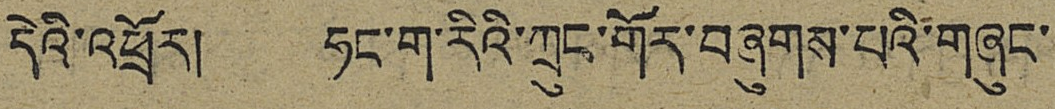དེའི་འཕྲོར། ཧང་ག་རིའི་ཀྲུང་གོར་བཞུགས་པའི་གཞུང་
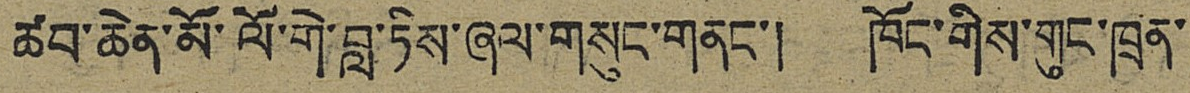ཚབ་ཆེན་མོ་ལོ་གེ་བླ་ཏིས་ཞལ་གསུང་གནང་། ཁོང་གིས་གུང་ཁྲན་
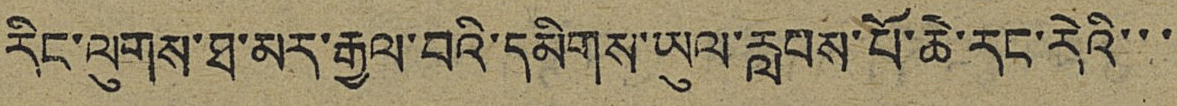རིང་ལུགས་ཐ་མར་རྒྱལ་བའི་དམིགས་ཡུལ་རླབས་པོ་ཆེ་རང་རེའི་་་
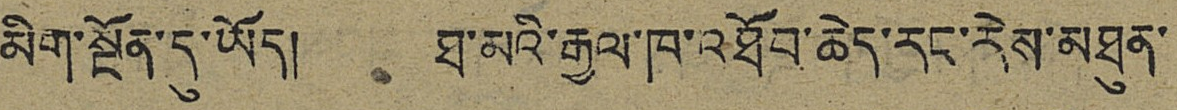མིག་སྔོན་དུ་ཡོད། ཐ་མའི་རྒྱལ་ཁ་འཐོབ་ཆེད་རང་རེས་མཐུན་
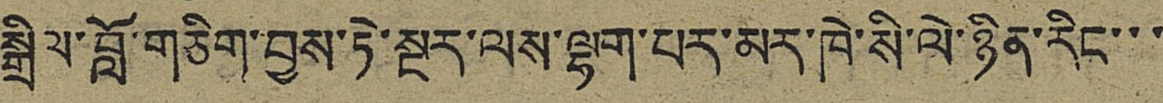སྒྲིལ་བློ་གཅིག་བྱས་ཏེ་སྔར་ལས་ལྷག་པར་མར་ཁེ་སི་ལེ་ཉིན་རིང་་་
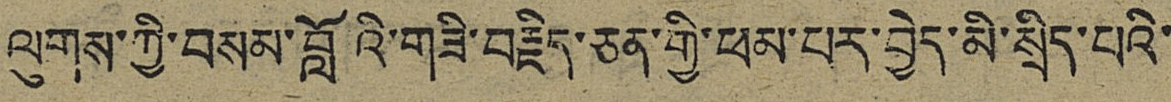ལུགས་ཀྱི་བསམ་བློའི་གཟི་བརྗིད་ཅན་གྱི་ཕམ་པར་བྱེད་མི་སྲིད་པའི་
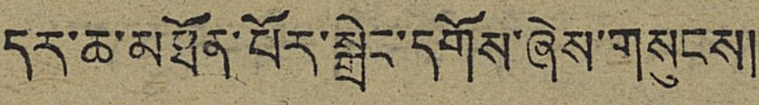དར་ཆ་མཐོན་པོར་སྒྲེང་དགོས་ཞེས་གསུངས།
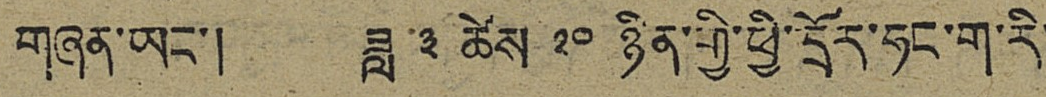གཞན་ཡང་། ཟླ ༣ ཚེས ༡༠ ཉིན་གྱི་ཕྱི་དྲོར་ཧང་ག་རི་
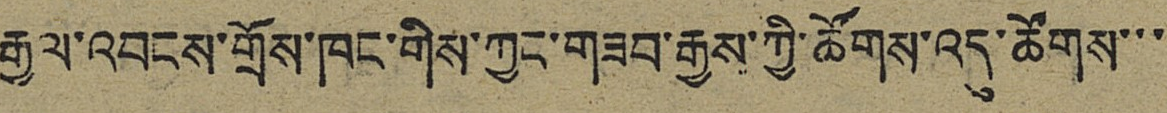རྒྱལ་འབངས་གྲོས་ཁང་གིས་ཀྱང་གཟབ་རྒྱས་ཀྱི་ཚོགས་འདུ་ཚོགས་་་
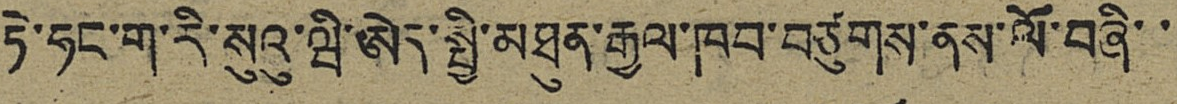ཏེ་ཧང་ག་རི་སུའུ་ཝི་ཨེད་སྤྱི་མཐུན་རྒྱལ་ཁབ་བཙུགས་ནས་ལོ་བཞི་་
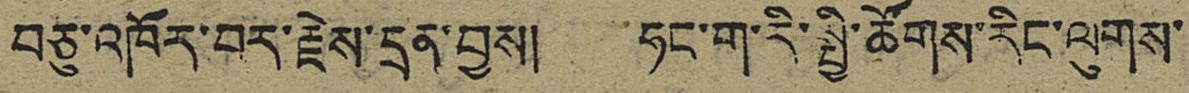བཅུ་འཁོར་བར་རྗེས་དྲན་བྱས། ཧང་ག་རི་སྤྱི་ཚོགས་རིང་ལུགས་
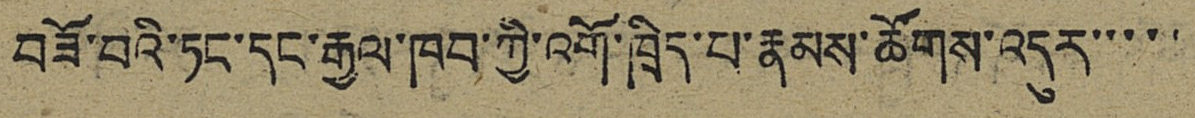བཟོ་བའི་ཏང་དང་རྒྱལ་ཁབ་ཀྱི་འགོ་ཁྲིད་པ་རྣམས་ཚོགས་འདུར་་་་་
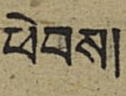ཕེབས།
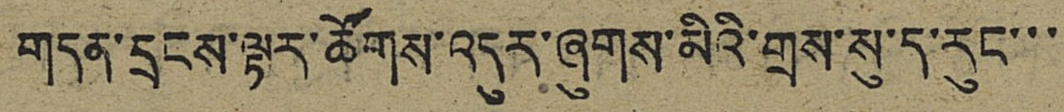གདན་དྲངས་ལྟར་ཚོགས་འདུར་ཞུགས་མིའི་གྲས་སུ་ད་རུང་་་
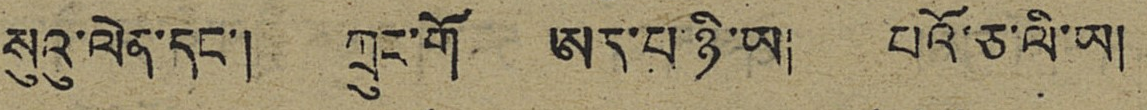སུའུ་ལེན་དང་། ཀྲུང་གོ ཨར་པ་ཉི་ཡ། པའོ་ཅ་ལི་ཡ།
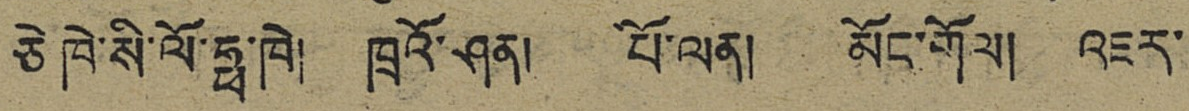ཅེ ཁེ་སི་ལོ་ཧྥ་ཁེ། ཁྲའོ་ཤན། པོ་ལན། མོང་གོལ། འཇར་
